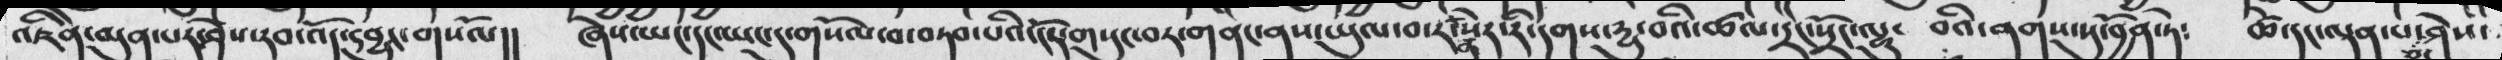འཇིེན་མུན་པར་ཤེས་རབ་འོད་དབྱུང་གསོལ།།  ཞེས་ཡང་དང་ཡང་དུ་གསོལ་བ་བཏབ་པའི་ངོར་གསུང་བར་གནང་ནས་ཡུལ་བ་རན་སེར་རི་དགས་དྱུ་བའི་ཚལ་དྲང་སྲོང་ལྷུང  བའི་ནགས་སུ་བྱོན་ཏེ༴  ཚེ་དང་ལྡན་པ་ཅང་ཤེས་
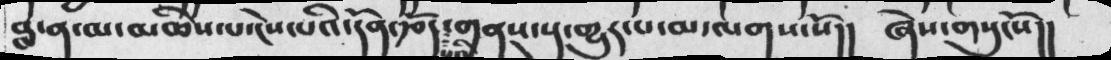བླ་ན་མ་མཆིས་པ་ངེས་པའི་དོན་རྩོན་པའི་གནས་སུ་གྱུར་པ་ལ་ལགས་སོ།།  ཞེས་གསུངསོ།།
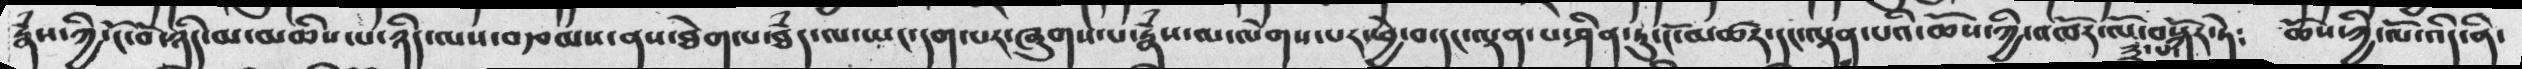རྣཾས་ཀྱི་ངོ་བོ་ཉིད་མ་མཆིས་པ་ཉིད་ལས་བརྩམས་ནས་ཐེག་པ་ཐཾད་ལ་ཡང་དག་པར་ཞུགས་པ་རྣཾས་ལ་ལེགས་པར་ཕྱེ་བ་དང་ལྡན་པ་ཤིན་ཏུ་ངོ་མཚར་དང་ལྡན་པའི་ཆོས་ཀྱི་འཁོར་ལོ་༣་པ་བསྐོར་ཏེ༴  ཆོས་ཀྱི་ལོ་འདི་ནི་
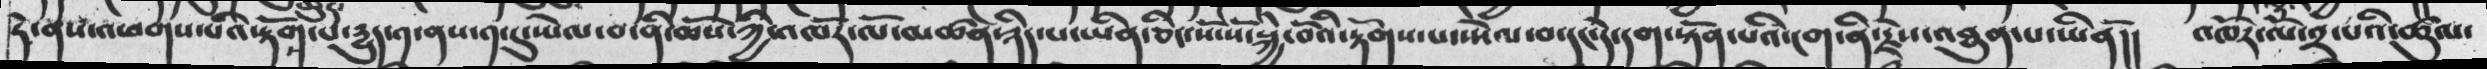ཏེ་ནས་འཕགས་པའི་རྟོགས་པ་རྒྱུད་༡་ནས་༡་དུ་སྤེལ་བ་ནི་ཆོས་ཀྱི་འཁོར་ལོ་མཚན་ཉིད་པ་ཡིན་ཅིང་སོ་སོ་སྐྱི་བོའི་རྟོགས་པ་སྤེལ་བ་དང་དེ་དག་སྟོན་པའི་ངག་ནི་རྗེས་འཐུན་པ་ཡིནོ།།  འཁོར་ལོ་༢་པའི་ཚུལ་
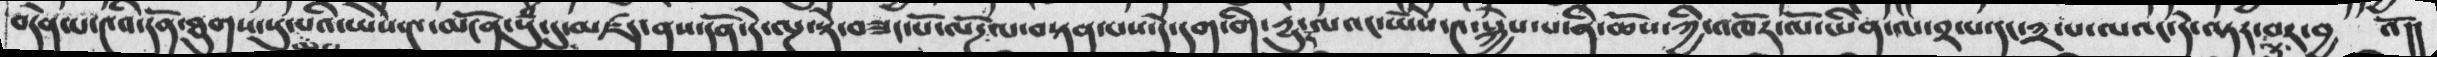བདེན་པ་༤འི་དོན་ཐུགས་སུ་མས་པའི་ཡེེས་༤་མངོན་སུཾ་དུ་མཛད་ནས་དོན་དེ་ལྔ་སྟེ་བཟང་པོ་ལོཌལ་བསྟན་པས་དེ་དག་གི་དྱུ་ལའང་ཡེེས་༤་སྐྱེས་པ་ནི་ཆོས་ཀྱི་འཁོར་ལོ་ཡིན་ལ་༢་པ་དང་༣་པ་ལའང་དེ་ལྟར་ལྟ་བར་བྱ   འོ།།
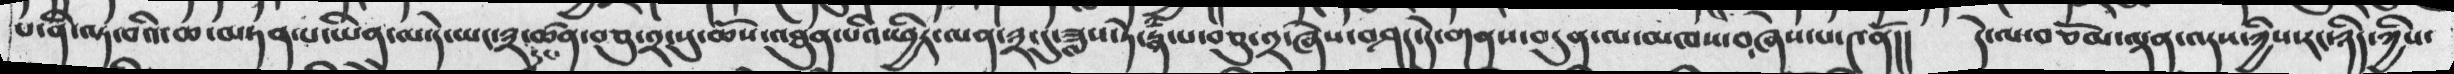པ་ནི་ལྟ་བའི་ཆ་བཏན་པ་ཡིན་མ་དེ་ཡང་༣་དང་ཚན་བཅུ་༢་སུ་ཆོས་འཐུན་པའི་ཕྱིར་ལན་༣་དུ་ཟླས་ཏེ་རྣཾ་པ་བཅུ་༢་ཞེས་བཤད་དེ་གནས་བདུན་ལ་མཁས་བཞེས་པ་༤ནོ།།   དེ་ལ་བཅོམ་ལྡན་འདས་ཀྱིས་རང་ཉིད་ཀྱིས་
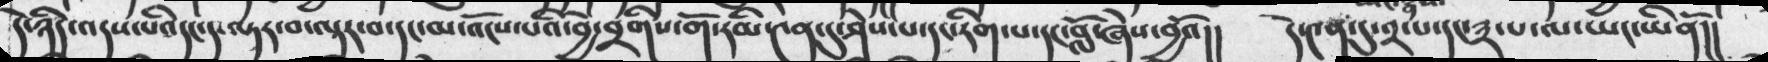དེ་ཉིད་འདས་པའི་དང་ད་ལྟར་བ་ལྟར་བ་དང་མ་འོངས་པའི་བྱེ་བྲགིས་གོ་རིམ་༤ན་དུ་ཤེས་པ་དང་རིག་པ་དང་བློ་ཞེས་བྱའོ།།  དེ་༤ན་དུ་༢་པ་དང་༣་པ་ལ་ཡང་ཡིནོ།།
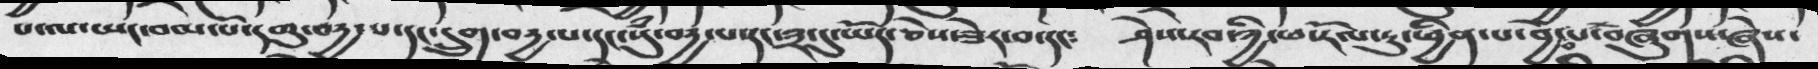པ་ལ་ཡང་བམ་པོ་དགུ་བདྱ་པ་དང་དྲུག་བདྱ་པ་དང་སུཾ་བདྱ་པ་དང་༣་དུ་ཡོད་ཅེས་ཟེར་བ་དང༴  ཤེས་རབ་ཀྱི་ཕ་རོལ་ཏུ་ཕྱིན་པ་བྱེ་བ་པ་བཞུགས་ཞེས་
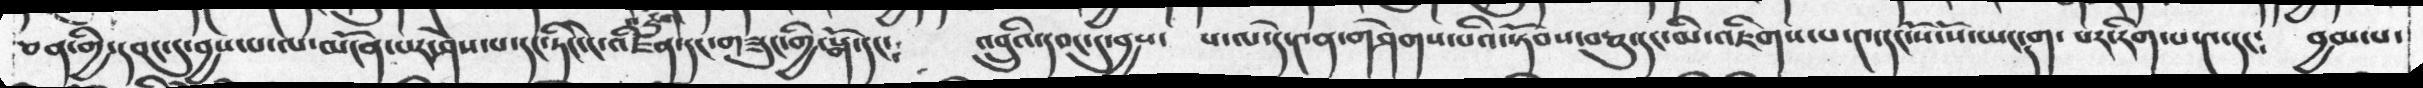ཅན་གྱི་དབང་དུ་བྱས་པ་ལ་མངོན་པར་ཤེས་པ་དང་ཏིང་ངེ་འཛིན་དང་གཟུང་གྱི་སྒོ་དང༴   འབྲུའི་དབང་དུ་བྱས་  པ་ལ་དེ་༤ན་གཤེགས་པའི་སྟོབས་བཅུ་དང་མི་འཇིགསས་པ་༤་དང་སོ་སོ་ཡང་དག་པར་རིག་པ་༤་དང༴  བྱམ་པ་
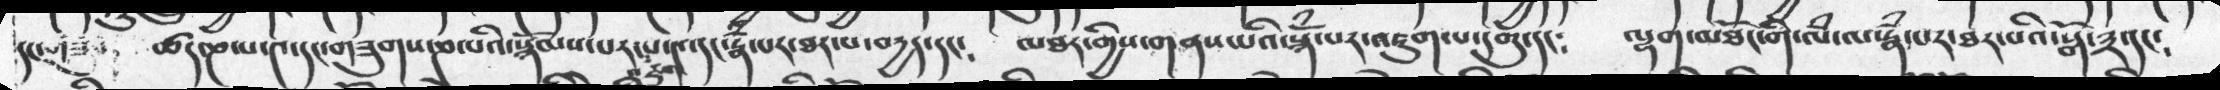དང་གཟུགས༴   ཚད་ཎ་པ་༤་དང་གཟུགས་ཎ་པའི་སྙོམས་པར་འཇུག་པ་༤་དང་རྣཾ་པར་ཐར་པ་བདྱད་དང༴   མཐར་གྱིས་གནས་པའི་སྙོཾ་པར་འཇུག་པ་དགུ་དང༴  ལྷག་མཐོང་གི་ལཾ་ལ་རྣཾ་པར་ཐར་པའི་སྒོ་༣་དང༴
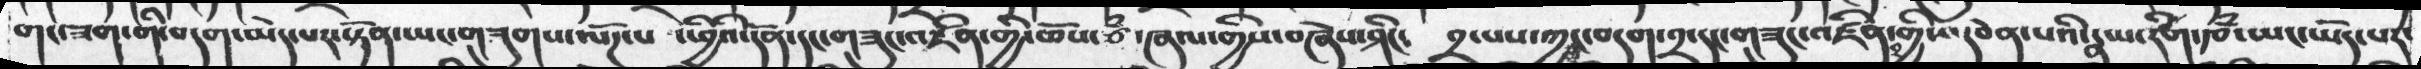གང་ཟག་གི་བདག་མེད་པར་སྟོན་ཡང་གཟུགས་ལོཌ་པ  དེ་ཕྱིའི་དོན་དང་གཟུང་འཛིན་གྱི་ཆོས་ཙཾ་ཞལ་གྱིས་བཞེས་ཤིང༴   ༢་པས་ཀྱང་བདག་༢་དང་གཟུང་འཛིན་བགྱིས་དབེན་པའི་རྣ་རིག་རྩཾ་ཡང་ཡོད་པར་
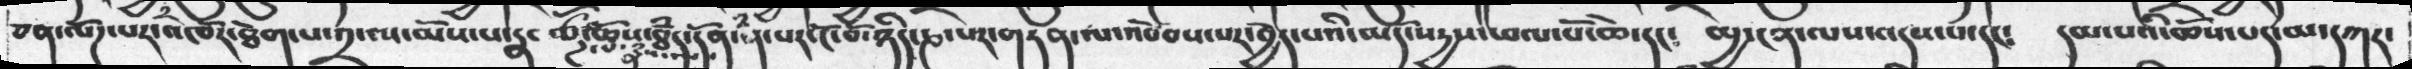ཅན་ལོཌ་པར་འཁོར་ཐེག་པ་༡་ལ་མོས་པ་རྣང ཆཌ་ཆོས་ཐཾད་དོན་ནཾ་པར་ངོ་བོ་ཉིད་ཎ་པར་གཏན་ལ་འབེབས་པར་བྱེད་པའི་མདོ་་སདྱས་ཕལ་པོ་ཆེ་དང༴  མྱ་ངན་ལས་འདས་པ་དང༴   དམ་པའི་ཆོས་པད་མ་དཀར་
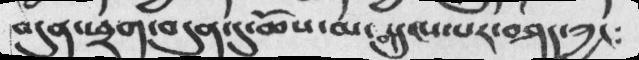བདུན་ཕྲག་བདུན་དུ་ཆོས་མ་གསུངས་པར་བཤད་ཀྱང༴
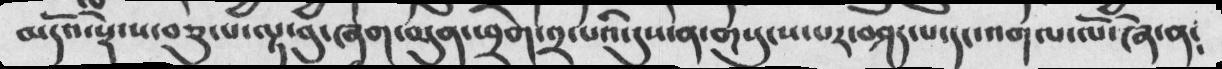མདོའ་སྡེ་ས་བཅུ་པ་ལྟ་བུ་ཞག་བདུན་ཕྲག་༢་པའི་དུས་ན་གསུངས་པར་བཤད་པ་དང་འགལ་ལོ་ཞེ་ན༴
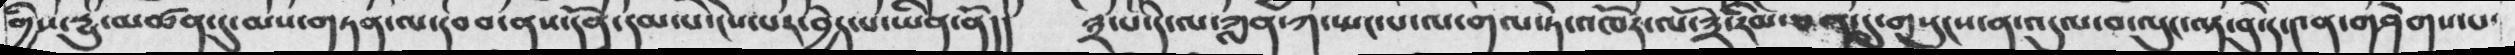གྱིས་དྱུ་མཚན་དུ་མས་གཏན་ལ་དབབ་ནས་དོན་དམ་པ་ངེས་པར་བྱེད་པ་ཡིན་ནོ།།  ༣་པ་དེ་ལ་ཀླན་ཀ་སྤངས་པ་ལ་གལ་ཏེ་འཁོར་ལོ་༣་རིམ་ཅན་དུ་གསུངས་ན་འདུལ་བ་ལུང་ལྟ་བུ་དེ་༤ན་གཤེགས་པ་
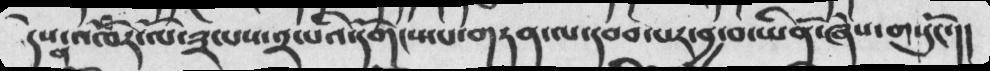དེས་ན་འཁོར་ལོ་༣་པས་༢་པའི་དགོངས་པ་གཏན་ལ་དབབ་པར་བྱ་བ་ཡིནོ་ཞེས་གསུངོ་།།
